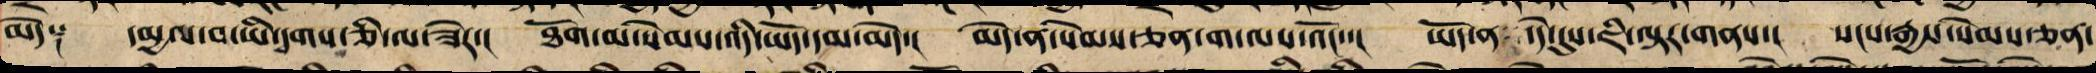མེད༑ དམྱལ་བ་ཡི་དྭགས་ཅི་ལ་ཟེར་། ཐོག་མ་སེམས་འདི་ཡོད་དམ་མེད་། མེད་ན་སེམས་ཅན་ག་ལས་འོང་་། ཡོད་ན་དེ་དུས་ཇི་ལྟར་གནས་། སངས་རྒྱས་སེམས་ཅན་
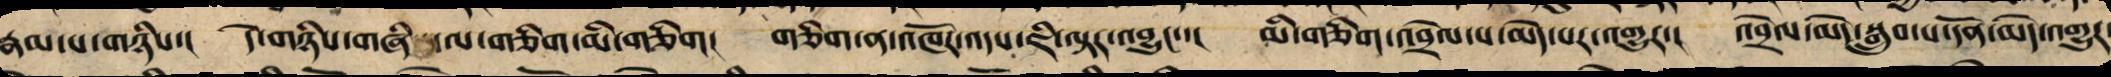རྣམ་པ་གཉིས་། དེ་གཉིས་གཞི་ལ་གཅིག་མི་གཅིག། གཅིག་ན་འཁོར་འདས་ཇི་ལྟར་འབྱུང་་། མི་གཅིག་འབྲེལ་པ་མེད་པར་འགྱུར་། འབྲེལ་མེད་སྒྲུབས་པ་དོན་མེད་འགྱུར་
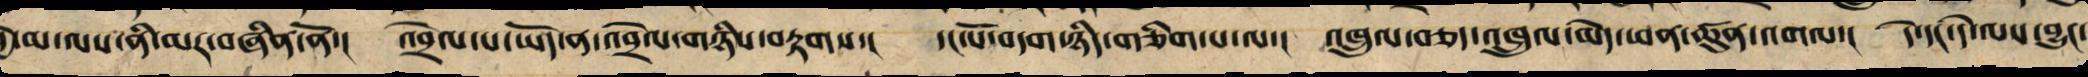བྱེ་མ་ལས་ནི་མར་བཞིན་ནོ་། འབྲེལ་པ་ཡོད་ན་འབྲེལ་གཉིས་བརྟགས་། དང་པོ་བདག་ཉིད་གཅིག་པ་ན་། འཁྲུལ་བཅད་འཁྲུལ་མེད་ཕན་ཚུན་འགལ་། དེ་དང་དེ་ལས་བྱུང་
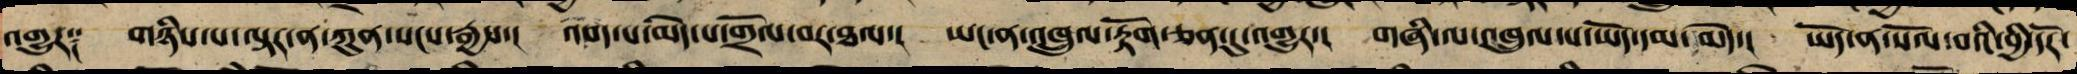འགྱུར༑ གཉིས་པ་ལྟར་ན་ཀུན་སངས་རྒྱས་། འབད་པ་མེད་པར་གྲོལ་བར་ཐལ་། ཡང་ན་འཁྲུལ་རྟོག་ཅན་དུ་འགྱུར་། གཞི་ལ་འཁྲུལ་པ་ཡོད་དམ་མེད་། ཡོད་ན་སོལ་བའི་བྱི་དོར་
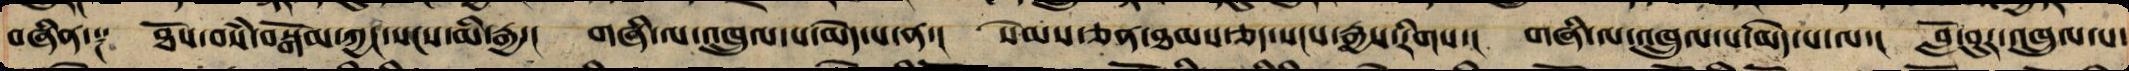བཞིན་༑ ཐོས་བསཾ་བསྒོམ་ཀྱང་སངས་མི་རྒྱ་། གཞི་ལ་འཁྲུལ་པ་མེད་པ་ན་། སེམས་ཅན་ཐམས་ཅད་སངས་རྒྱས་རིགས་། གཞི་ལ་འཁྲུལ་པ་མེད་པ་ལ་། བློ་བུར་འཁྲུལ་པ་
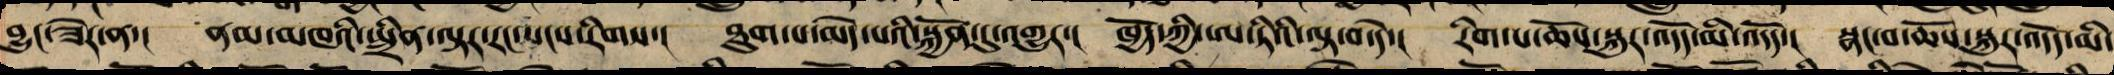བྱུང་ཟེར་ན་། ནམ་མཁའི་སྤྲིན་ལྟར་རང་སངས་རིགས་། ཐུག་པ་མེད་པའི་སྐྱོན་དུ་འགྱུར་། ཁྱོད་ཀྱི་ཨ་ཏིའི་ལྟ་བ་དེ་། རིག་པ་ཆོས་སྐུར་འདོད་མི་འདོད་། སྣང་བ་ཆོས་སྐུར་འདོད་མི་
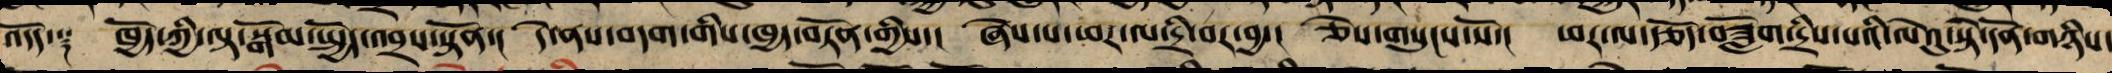འདོད་༑ ཁྱོད་ཀྱི་ལྟ་སྒོམ་སྤྱོད་འབྲས་སྟོན་། དེ་ནས་བདག་གིས་ཁྱད་བཏོན་གྱིས་། ཞེས་པ་ཕར་ལ་དྲི་བར་བྱ་། ཅེས་གསུངས་སོ་། ཕར་ལ་རྩོད་བཟློག་དྲིས་པའི་ལེའུ་སྟེ་དོན་གཉིས་
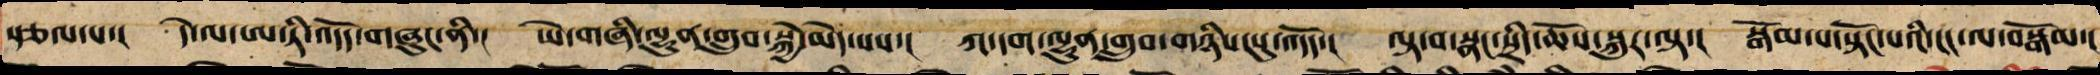སྩལ་པ་། དེ་ལ་ཨ་ཏི་འདོད་གཞུང་ནི་། ཡེ་གཞི་ལྷུན་གྲུབ་སྐྱེ་མེད་པས་། ཀ་དག་ལྷུན་གྲུབ་གཉིས་སུ་འདོད་། ལྟ་བ་སྣང་སྲིད་ཆོས་སྐུར་ལྟ་། སྒོམ་པ་སྟོང་པའི་ངང་ལ་བསྒོམ་།
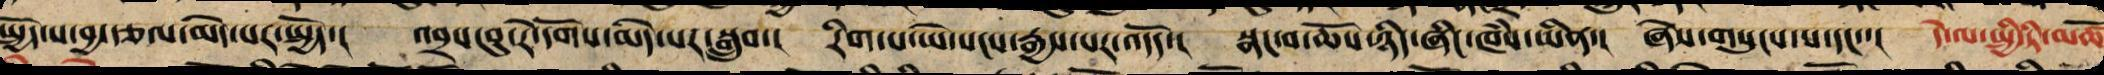སྤྱོད་པ་བྱ་རྩལ་མེད་པར་སྤྱོད་། འབྲས་བུ་རེ་དོགས་མེད་པར་སྒྲུབ་། རིག་པ་ཡེ་སངས་རྒྱས་པར་འདོད་། སྣང་བ་ཆོས་ཉིད་ཞིང་ཁཾས་ཡིན་། ཞེས་གསུངས་པ་དང་་། དེ་ལ་སྤྱི་ཏི་མཚོ
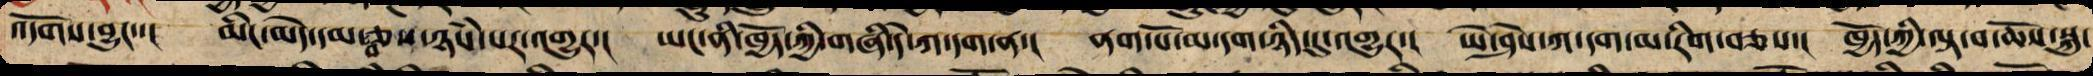འདོགས་བྱུང་་། མིང་མེད་དམ་ཅས་ཉཾས་པར་འགྱུར་། ཡང་ནི་ཁྱོད་ཀྱི་གཞི་དེ་ཀ་དག་ན་། ནག་པོ་མ་དག་ཉིད་དུ་འགྱུར་། ཡེ་ཤེས་ཀ་དག་མ་རིག་བཅས་། ཁྱོད་ཀྱི་ལྟ་བ་ཆོས་སྐུ་
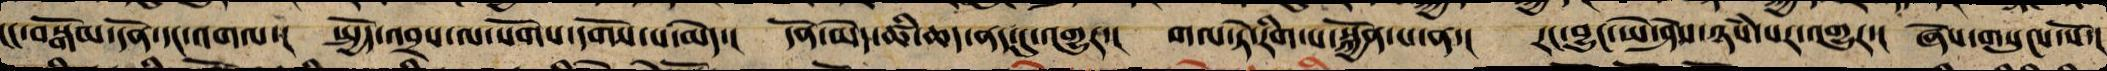ངང་བསྒོམ་དོན་དང་འགལ་། སྤྱོད་འབྲས་ལ་སོགས་དགོས་པ་མེད་། དོན་མེད་ཚི་ཆད་ནད་དུ་འགྱུར་། གལ་ཏེ་རིག་པ་སྐྱོན་པ་ན་། རང་བྱུང་ཡེ་ཤེས་ཉཾས་པར་འགྱུར་། ཞེས་གསུངས་སོ་།
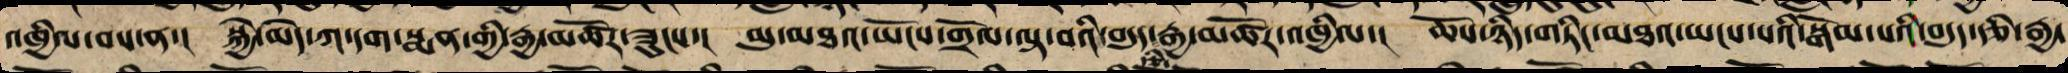འཁྱིལ་པས་ན། །སྐྱེ་མེད་ཀ་དག་སྨན་གྱི་རྒྱ་མཚོར་ཟུང་། །མུ་མཐའ་ཡོངས་གྲོལ་ལྟ་བའི་བདུད་རྩི་རྒྱ་མཚོར་འཁྱིལ། །ཆོས་ཉིད་གཏིང་མཐའ་ཡངས་པའི་བསྒོམ་པའི་བདུད་རྩི་རྒྱ་
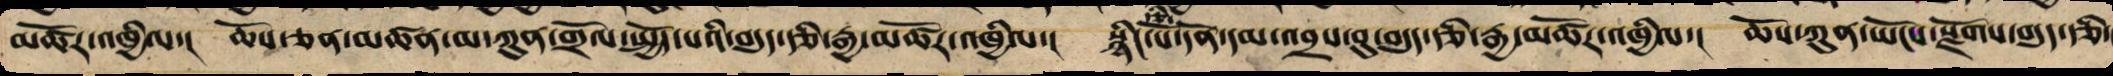མཚོར་འཁྱིལ་། ཆོས་ཀུན་མཚན་མ་ཀུན་གྲོལ་སྤྱོད་པའི་བདུད་རྩི་རྒྱ་མཚོར་འཁྱིལ་། སྙིང་པོ་དོན་དམ་འབྲས་བུ་བདུད་རྩི་རྒྱ་མཚོར་འཁྱིལ་། ཆོས་ཀུན་ཡོངས་རྫོགས་བདུད་རྩི
